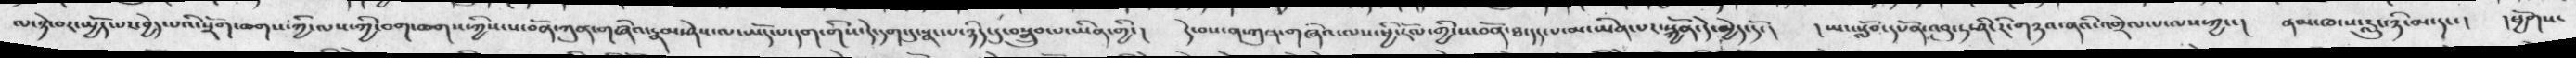ལ་ཉེ་བར་སྤྱོད་པར་བྱེད་པའི་སྲོག་ཆགས་ཀྱི་ལས་ཀྱི་བག་ཆགས་ཀྱིས་ས་བོན་ཀུན་གཞིའ་རྣམ་ཤེས་ལ་ཡོད་པ་དག་གིས་དེ་དག་གིས་དེ་དག་དུ་སྣང་པ་ཉིད་དུ་བསྒྲུབ་པ་ཡིན་གྱི་།   དེ་བས་ན་ཀུན་གཞིའ་ལས་ཕྱི་རོལ་གྱི་ས་བོན་ཐ་དད་པ་མ་ཡིན་པར་སྐྱོན་དེ་མྱེད་དོ་།    ། ཡང་སློབ་དཔོན་འབུ་ཏ་ཤི་རི་གཉའ་ནའི་འགྲེལ་པ་ལས་ཀྱང་།   ནམ་ཁ་ས་རླུང་ཉི་མ་དང་།  ཕྱོགས་
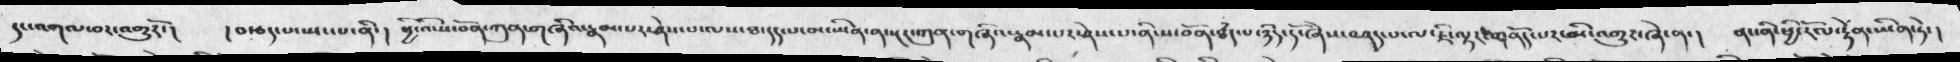དུ་འགལ་བར་འགྱུརོ་།   ། བ་ཅད་པ་ཡངས་པ་ནི་།     ཕྱི་འི་ས་བོན་ཀུན་གཞིའ་རྣམ་པར་ཤེས་པ་ལས་ཐ་དད་པ་མ་ཡིན་ན་སྔར་ཀུན་གཞི་རྣམ་པར་ཤེས་པ་ནི་ས་བོན་ཐཾད་པ་ཉིད་དོ་ཞེས་བཤད་པ་ལ་ཇི་ལྟར་གནོད་པར་མི་འགྱུར་ཞེ་ན་།  ནང་གི་ཕྱི་རོལ་རྟོན་ཡིན་ཏེ་།
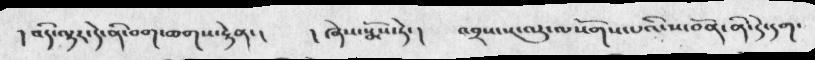། བདི་ལྟར་དེ་ནི་བག་ཆགས་རྟེན་།   ། ཞེས་སྨོས་ཏེ་།  འབྲས་པ་ལུ་ལསོགས་པའི་ས་བོན་ནི་དེ་དག་
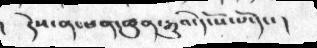།      དེས་ན་ཕན་ཚུན་རྒྱུའི་དངོས་པོ་དང་ །
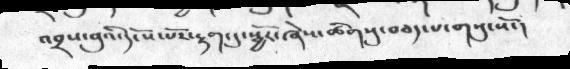འབྲས་བུའི་དངོས་པོར་རྟག་དུ་སྦྱོར་ཞེས་ཚིགསུ་བཅད་པ་གསུངསོ་ །
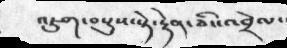འཇུག་བསྡུས་སྟེ་རྟེན་ཅིང་འབྲེལ་་
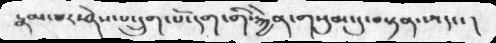རྣམ་པར་ཤེས་པ་དྲུག་པོ་དག་གི་རྐྱེན་གསུམ་དུ་བསྟན་པ་དང་ །
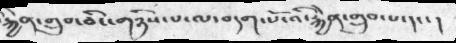རྐྱེན་གྲུབ་ཅིང་གཉིས་པ་ལ་བདག་པོ་འི་རྐྱེན་གྲུབ་པ་དང་ །
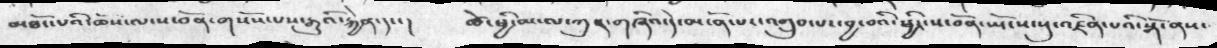མཐོང་པའི་ཆོས་ལ་ས་བོན་གསོས་པས་རྒྱུའི་རྐྱེན་དང་།        ཚེ་ཕྱི་མ་ལ་ཀུན་གཞིའ་དེ་མ་ནོ་པར་འགྲུབ་པ་བྱ་བའི་ཕྱིར་ས་བོན་ཡོངས་སུ་འཛིན་པའི་སྒོ་ནས་
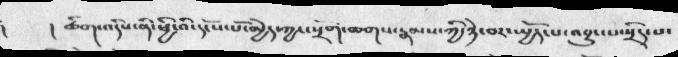།     །ཚིག་འདིས་ནི་ཕྱི་འི་དངོས་པོ་མྱེད་ཀྱང་སྲོག་ཆགས་རྣམས་ཀྱི་ཉེ་བར་སྤྱོད་པ་འབྱུང་པ་སྲིད་པ་
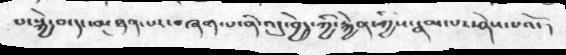པ་སྐྱེ་བ་དང་མཐུན་པར་བཞག་པ་ནི་འདུ་བྱེད་ཀྱི་རྐྱེན་གྱིས་རྣམ་པར་ཤེས་པའོ་ །
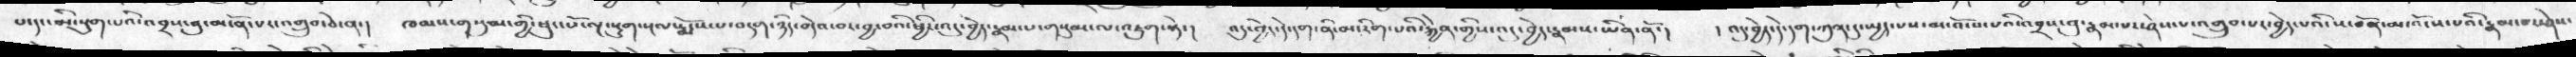པ་དང་མི་སྡུག་པའི་འབྲས་བུ་མངོན་པར་འགྲུབ་ཅེ་ན་།  ཁམས་གསུམ་གྱི་ཕུང་པོ་ལྔ་སྡུག་སྔལ་རྨོངས་པ་བདག་ཉིད་བདེའ་བར་བྱ་བའི་ཕྱིར་འདུ་བྱེད་རྣམ་པ་གསུམ་ལ་འཇུག་སྟེ་།    འདུ་བྱེད་དེ་དག་ནི་མ་རིག་པའི་རྐྱེན་གྱིས་འདུ་བྱེད་རྣམས་ཡིན་ནོ་།  ། འདུ་བྱེད་དེ་དག་ཀུན་དུ་སྤྱད་པས་མ་འོངས་པའི་འབྲས་བུ་རྣམ་པར་ཤེས་པ་འགྲུབ་པར་བྱེད་པའི་ས་བོན་མ་འོངས་པའི་པར་ཤེས་
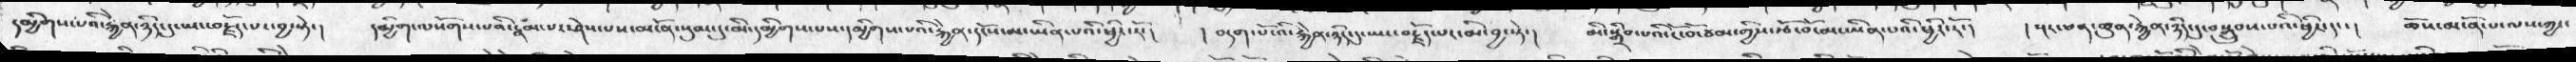དམྱིགས་པའི་རྐྱེན་ཉིད་དུ་ཡང་བརྗོད་པར་བྱ་སྟེ་།   དམྱིག་ལསོགས་པའི་རྣམ་པར་ཤེས་པས་མངོན་སུམ་དུ་མི་དམྱིགས་པས་དམྱིགས་པའི་རྐྱེན་དངོས་མ་ཡིན་པའི་ཕྱིར་རོ་།   ། བདག་པོའི་རྐྱེན་ཉིད་དུ་ཡང་བརྗོད་པར་མི་བྱ་སྟེ་།   མི་སྒྲིབ་པའི་ངོ་བོ་ཙམ་གྱིས་རྩོ་བོ་མ་ཡིན་པའི་ཕྱིར་རོ་།   ། སྔར་ཕན་ཚུན་རྐྱེན་ཉིད་དུ་བསྒྲུབས་པའི་ཕྱིར་དང་།   ཆོས་མངོན་པ་ལས་ཀྱང་
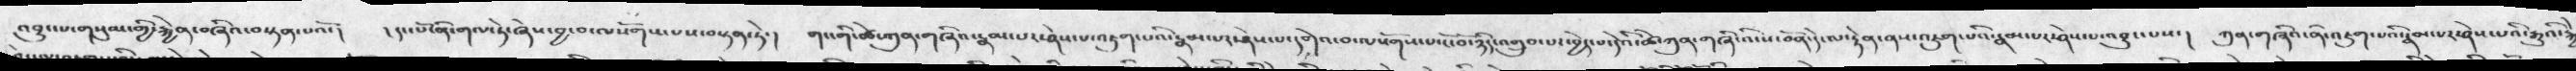འབྱུང་པ་གསུམ་གྱི་རྐྱེན་བཞིའ་བསྟན་པའོ་།  ། དང་པོ་ནི་གལ་ཏེ་ཞེས་བྱ་བ་ལསོགས་པས་བསྟན་ཏེ་།   གང་གི་ཚེ་ཀུན་གཞིའ་རྣམ་པར་ཤེས་པ་འཇུག་པའི་རྣམ་པར་ཤེས་པ་དགེའ་བ་ལསོགས་པ་ངོ་བོ་ཉིད་འགྲུབ་པར་བྱེད་པ་དེའི་ཚེ་ཀུན་གཞི་འི་ས་བོན་དེ་ལ་རྟེན་ནས་འཇུག་པའི་རྣམ་པར་ཤེས་པ་འབྱུང་པས་།   ཀུན་གཞིའ་ནི་འཇུག་པའི་རྣམ་པར་ཤེས་པའི་རྒྱུའི་རྐྱེ
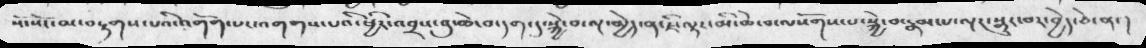སོ་སོར་མ་བརྟགས་པའི་འགོག་པར་འགགས་པའི་ཕྱིར་འབྲས་བུ་ཆེ་བ་དག་དུ་སྐྱེ་བ་ལྔ་མྱེད་ན་ཇི་ལྟར་མི་ཆེ་བ་ལསོགས་པ་སྐྱེ་བ་རྣམ་པ་ལྔར་སྒྱུར་བར་བྱེད་ཅེ་ན་།
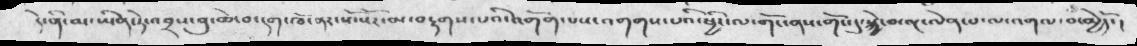དེ་ནི་མ་ཡིན་ཏེ་འབྲས་བུ་ཆེ་བ་དག་ཁོ་ནར་སོ་སོར་མ་བརྟགས་པའི་འགོག་པའི་ཕྱིར་ལ་གོང་ནས་གོང་དུ་སྐྱེ་བ་ལྔ་ལེན་པ་ལ་འགལ་བ་མྱེདོ་།
